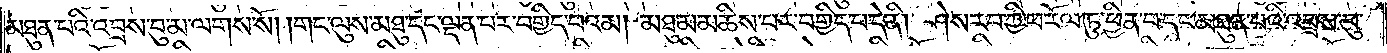མཐུན་པའི་འབྲས་བུ་མ་ལགས་སོ། །གང་ལུས་མཐུ་དང་ལྡན་པར་བགྱིད་པའམ། མཐུ་མ་མཆིས་པར་བགྱིད་པ་དེ་ནི། ཤེས་རབ་ཀྱི་ཕ་རོལ་ཏུ་ཕྱིན་པ་དང་མཐུན་པའི་འབྲས་བུ་
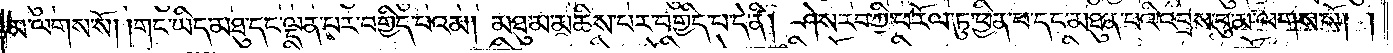མ་ལགས་སོ། །གང་ཡིད་མཐུ་དང་ལྡན་པར་བགྱིད་པའམ། མཐུ་མ་མཆིས་པར་བགྱིད་པ་དེ་ནི། ཤེས་རབ་ཀྱི་ཕ་རོལ་ཏུ་ཕྱིན་པ་དང་མཐུན་པའི་འབྲས་བུ་མ་ལགས་སོ། །
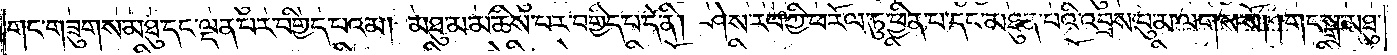གང་གཟུགས་མཐུ་དང་ལྡན་པར་བགྱིད་པའམ། མཐུ་མ་མཆིས་པར་བགྱིད་པ་དེ་ནི། ཤེས་རབ་ཀྱི་ཕ་རོལ་ཏུ་ཕྱིན་པ་དང་མཐུན་པའི་འབྲས་བུ་མ་ལགས་སོ། །གང་སྒྲ་མཐུ་
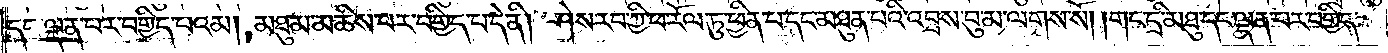དང་ལྡན་པར་བགྱིད་པའམ། མཐུ་མ་མཆིས་པར་བགྱིད་པ་དེ་ནི། ཤེས་རབ་ཀྱི་ཕ་རོལ་ཏུ་ཕྱིན་པ་དང་མཐུན་པའི་འབྲས་བུ་མ་ལགས་སོ། །གང་དྲི་མཐུ་དང་ལྡན་པར་བགྱིད་
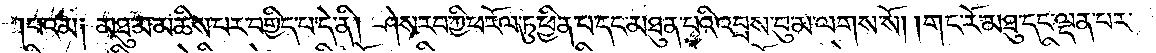པའམ༑ མཐུ་མ་མཆིས་པར་བགྱིད་པ་དེ་ནི། ཤེས་རབ་ཀྱི་ཕ་རོལ་ཏུ་ཕྱིན་པ་དང་མཐུན་པའི་འབྲས་བུ་མ་ལགས་སོ། །གང་རོ་མཐུ་དང་ལྡན་པར་
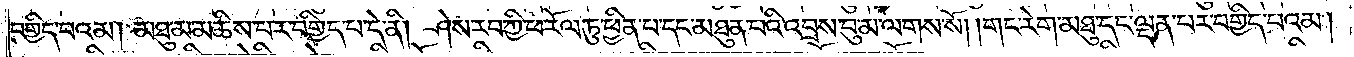བགྱིད་པའམ། མཐུ་མ་མཆིས་པར་བགྱིད་པ་དེ་ནི། ཤེས་རབ་ཀྱི་ཕ་རོལ་ཏུ་ཕྱིན་པ་དང་མཐུན་པའི་འབྲས་བུ་མ་ལགས་སོ། །གང་རེག་མཐུ་དང་ལྡན་པར་བགྱིད་པའམ།
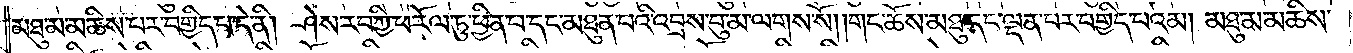མཐུ་མ་མཆིས་པར་བགྱིད་པ་དེ་ནི། ཤེས་རབ་ཀྱི་ཕ་རོལ་ཏུ་ཕྱིན་པ་དང་མཐུན་པའི་འབྲས་བུ་མ་ལགས་སོ། །གང་ཆོས་མཐུ་དང་ལྡན་པར་བགྱིད་པའམ། མཐུ་མ་མཆིས་
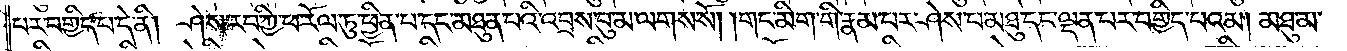པར་བགྱིད་པ་དེ་ནི། ཤེས་རབ་ཀྱི་ཕ་རོལ་ཏུ་ཕྱིན་པ་དང་མཐུན་པའི་འབྲས་བུ་མ་ལགས་སོ། །གང་མིག་གི་རྣམ་པར་ཤེས་པ་མཐུ་དང་ལྡན་པར་བགྱིད་པའམ། མཐུ་མ་
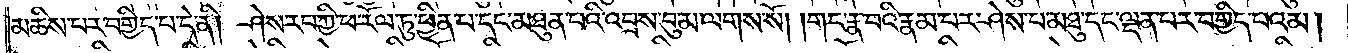མཆིས་པར་བགྱིད་པ་དེ་ནི། ཤེས་རབ་ཀྱི་ཕ་རོལ་ཏུ་ཕྱིན་པ་དང་མཐུན་པའི་འབྲས་བུ་མ་ལགས་སོ། །གང་རྣ་བའི་རྣམ་པར་ཤེས་པ་མཐུ་དང་ལྡན་པར་བགྱིད་པའམ།
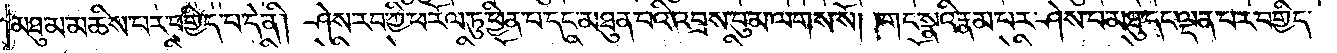མཐུ་མ་མཆིས་པར་བགྱིད་པ་དེ་ནི། ཤེས་རབ་ཀྱི་ཕ་རོལ་ཏུ་ཕྱིན་པ་དང་མཐུན་པའི་འབྲས་བུ་མ་ལགས་སོ། །གང་སྣའི་རྣམ་པར་ཤེས་པ་མཐུ་དང་ལྡན་པར་བགྱིད་
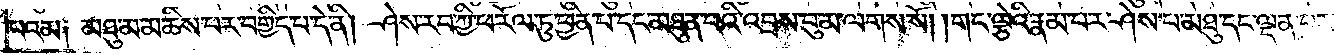པའམ༑ མཐུ་མ་མཆིས་པར་བགྱིད་པ་དེ་ནི། ཤེས་རབ་ཀྱི་ཕ་རོལ་ཏུ་ཕྱིན་པ་དང་མཐུན་པའི་འབྲས་བུ་མ་ལགས་སོ། །གང་ལྕེའི་རྣམ་པར་ཤེས་པ་མཐུ་དང་ལྡན་པར་
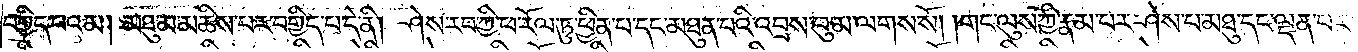བགྱིད་པའམ། མཐུ་མ་མཆིས་པར་བགྱིད་པ་དེ་ནི། ཤེས་རབ་ཀྱི་ཕ་རོལ་ཏུ་ཕྱིན་པ་དང་མཐུན་བའི་འབྲས་བུ་མ་ལགས་སོ། །གང་ལུས་ཀྱི་རྣམ་པར་ཤེས་པ་མཐུ་དང་ལྡན་པར་
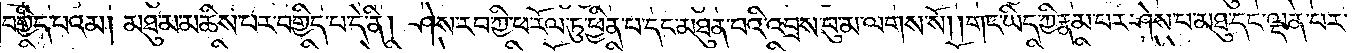བགྱིད་པའམ། མཐུ་མ་མཆིས་པར་བགྱིད་པ་དེ་ནི། ཤེས་རབ་ཀྱི་ཕ་རོལ་ཏུ་ཕྱིན་པ་དང་མཐུན་པའི་འབྲས་བུ་མ་ལགས་སོ། །གང་ཡིད་ཀྱི་རྣམ་པར་ཤེས་པ་མཐུ་དང་ལྡན་པར་
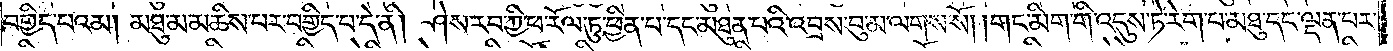བགྱིད་པའམ། མཐུ་མ་མཆིས་པར་བགྱིད་པ་དེ་ནི། ཤེས་རབ་ཀྱི་ཕ་རོལ་ཏུ་ཕྱིན་པ་དང་མཐུན་པའི་འབྲས་བུ་མ་ལགས་སོ། །གང་མིག་གི་འདུས་ཏེ་རེག་པ་མཐུ་དང་ལྡན་པར་
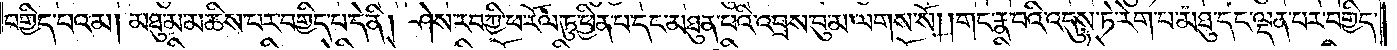བགྱིད་པའམ། མཐུ་མ་མཆིས་པར་བགྱིད་པ་དེ་ནི། ཤེས་རབ་ཀྱི་ཕ་རོལ་ཏུ་ཕྱིན་པ་དང་མཐུན་པའི་འབྲས་བུ་མ་ལགས་སོ། །གང་རྣ་བའི་འདུས་ཏེ་རེག་པ་མཐུ་དང་ལྡན་པར་བགྱིད་
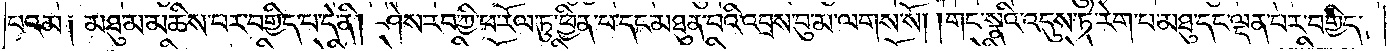པའམ༑ མཐུ་མ་མཆིས་པར་བགྱིད་པ་དེ་ནི། ཤེས་རབ་ཀྱི་ཕ་རོལ་ཏུ་ཕྱིན་པ་དང་མཐུན་པའི་འབྲས་བུ་མ་ལགས་སོ། །གང་སྣའི་འདུས་ཏེ་རེག་པ་མཐུ་དང་ལྡན་པར་བགྱིད་
